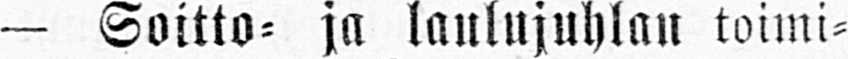— Soitto- ja laulujuhlan toimi-
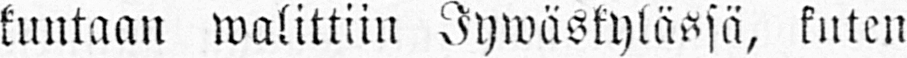kuntaan walittiin Jywäskylässä, kuten
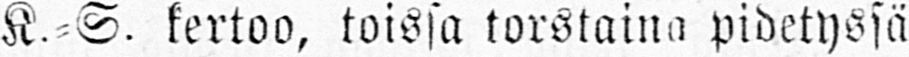K.-S. kertoo, toissa torstaina pidetyssä
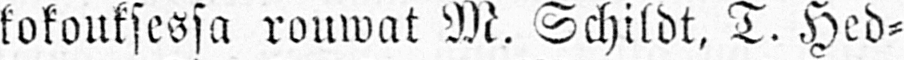kokouksessa rouwat M. Schildt, T. Hed-
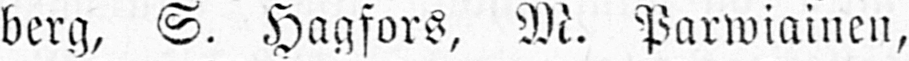berg, S. Hagfors, M. Parwiainen,
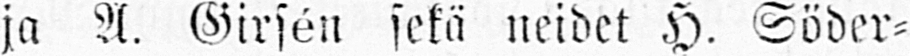ja A. Girsén sekä neidet H. Söder-
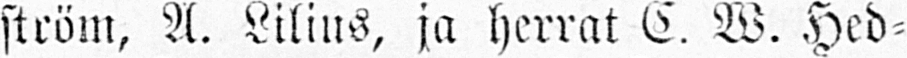ström, A. Lilius, ja herrat C. W. Hed-
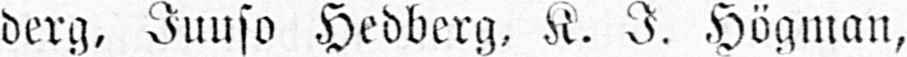berg, Juuso Hedberg, K. I. Högman,
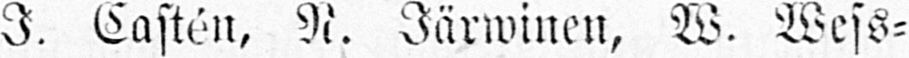I. Castén, N. Järwinen, W. Wess-
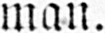man.
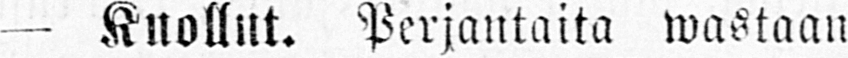— Kuollut. Perjantaita wastaan
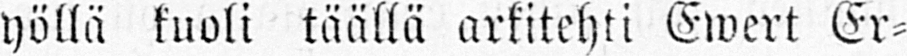yöllä kuoli täällä arkitehti Ewert Er-
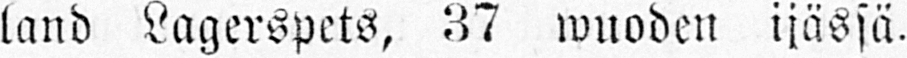land Lagerspets, 37 wuoden ijässä.
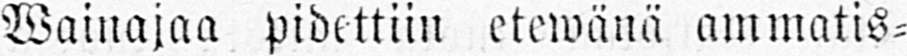Wainajaa pidettiin etewänä ammatis-
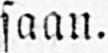saan.
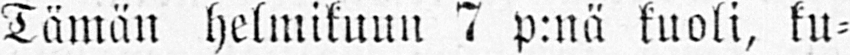Tämän helmikuun 7 p:nä kuoli, ku-
